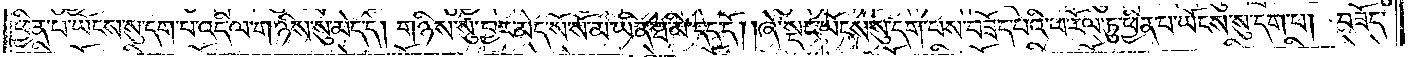ཕྱིན་པ་ཡོངས་སུ་དག་པ་འདི་ལ་གཉིས་སུ་མེད་དེ། གཉིས་སུ་བྱར་མེད་སོ་སོ་མ་ཡིན་ཐ་མི་དད་དོ། །ཞེ་སྡང་ཡོངས་སུ་དག་པས་བཟོད་པའི་ཕ་རོལ་ཏུ་ཕྱིན་པ་ཡོངས་སུ་དག་པ། བཟོད་
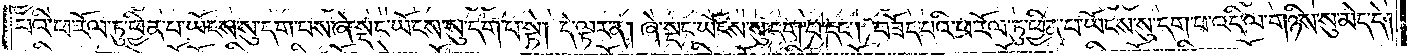པའི་ཕ་རོལ་ཏུ་ཕྱིན་པ་ཡོངས་སུ་དག་པས་ཞེ་སྡང་ཡོངས་སུ་དག་པ་སྟེ། དེ་ལྟར་ན། ཞེ་སྡང་ཡོངས་སུ་དག་པ་དང༌། བཟོད་པའི་ཕ་རོལ་ཏུ་ཕྱིན་པ་ཡོངས་སུ་དག་པ་འདི་ལ་གཉིས་སུ་མེད་དེ།
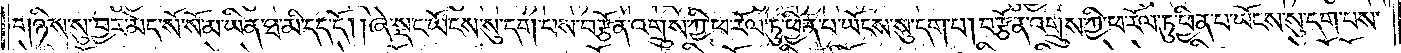གཉིས་སུ་བྱར་མེད་སོ་སོ་མ་ཡིན་ཐ་མི་དད་དོ། །ཞེ་སྡང་ཡོངས་སུ་དག་པས་བརྩོན་འགྲུས་ཀྱི་ཕ་རོལ་ཏུ་ཕྱིན་པ་ཡོངས་སུ་དག་པ། བརྩོན་འགྲུས་ཀྱི་ཕ་རོལ་ཏུ་ཕྱིན་པ་ཡོངས་སུ་དག་པས་
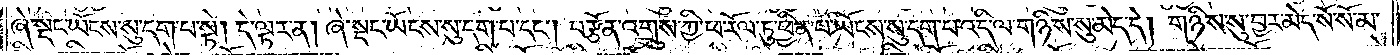ཞེ་སྡང་ཡོངས་སུ་དག་པ་སྟེ། དེ་ལྟར་ན། ཞེ་སྡང་ཡོངས་སུ་དག་པ་དང༌། བརྩོན་འགྲུས་ཀྱི་ཕ་རོལ་ཏུ་ཕྱིན་པ་ཡོངས་སུ་དག་པ་འདི་ལ་གཉིས་སུ་མེད་དེ། གཉིས་སུ་བྱར་མེད་སོ་སོ་མ་
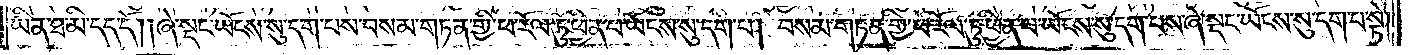ཡིན་ཐ་མི་དད་དོ། །ཞེ་སྡང་ཡོངས་སུ་དག་པས་བསམ་གཏན་གྱི་ཕ་རོལ་ཏུ་ཕྱིན་པ་ཡོངས་སུ་དག་པ། བསམ་གཏན་གྱི་ཕ་རོལ་ཏུ་ཕྱིན་པ་ཡོངས་སུ་དག་པས་ཞེ་སྡང་ཡོངས་སུ་དག་པ་སྟེ།
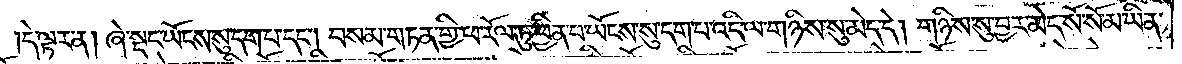དེ་ལྟར་ན། ཞེ་སྡང་ཡོངས་སུ་དག་པ་དང༌། བསམ་གཏན་གྱི་ཕ་རོལ་ཏུ་ཕྱིན་པ་ཡོངས་སུ་དག་པ་འདི་ལ་གཉིས་སུ་མེད་དེ། གཉིས་སུ་བྱར་མེད་སོ་སོ་མ་ཡིན་
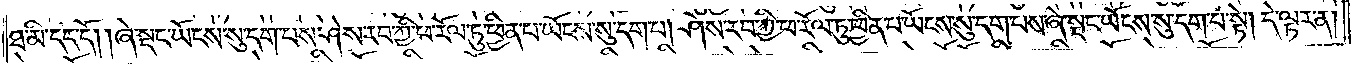ཐ་མི་དད་དོ། །ཞེ་སྡང་ཡོངས་སུ་དག་པས་ཤེས་རབ་ཀྱི་ཕ་རོལ་ཏུ་ཕྱིན་པ་ཡོངས་སུ་དག་པ། ཤེས་རབ་ཀྱི་ཕ་རོལ་ཏུ་ཕྱིན་པ་ཡོངས་སུ་དག་པས་ཞེ་སྡང་ཡོངས་སུ་དག་པ་སྟེ། དེ་ལྟར་ན།
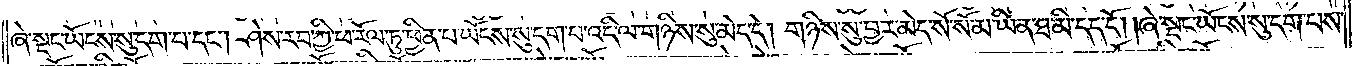ཞེ་སྡང་ཡོངས་སུ་དག་པ་དང༌། ཤེས་རབ་ཀྱི་ཕ་རོལ་ཏུ་ཕྱིན་པ་ཡོངས་སུ་དག་པ་འདི་ལ་གཉིས་སུ་མེད་དེ། གཉིས་སུ་བྱར་མེད་སོ་སོ་མ་ཡིན་ཐ་མི་དད་དོ། །ཞེ་སྡང་ཡོངས་སུ་དག་པས་
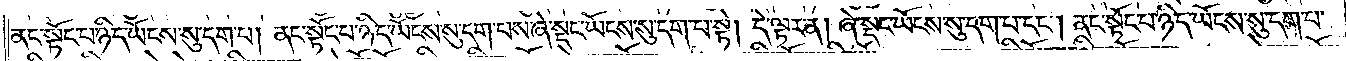ནང་སྟོང་པ་ཉིད་ཡོངས་སུ་དག་པ། ནང་སྟོང་པ་ཉིད་ཡོངས་སུ་དག་པས་ཞེ་སྡང་ཡོངས་སུ་དག་པ་སྟེ། དེ་ལྟར་ན། ཞེ་སྡང་ཡོངས་སུ་དག་པ་དང༌། ནང་སྟོང་པ་ཉིད་ཡོངས་སུ་དག་པ་
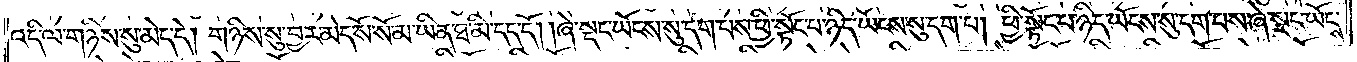འདི་ལ་གཉིས་སུ་མེད་དེ། གཉིས་སུ་བྱར་མེད་སོ་སོ་མ་ཡིན་ཐ་མི་དད་དོ། །ཞེ་སྡང་ཡོངས་སུ་དག་པས་ཕྱི་སྟོང་པ་ཉིད་ཡོངས་སུ་དག་པ། ཕྱི་སྟོང་པ་ཉིད་ཡོངས་སུ་དག་པས་ཞེ་སྡང་ཡོངས་
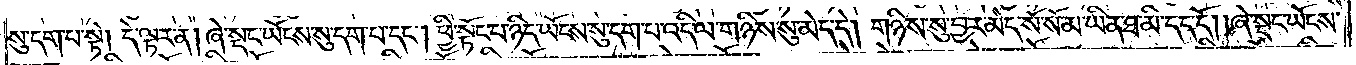སུ་དག་པ་སྟེ། དེ་ལྟར་ན། ཞེ་སྡང་ཡོངས་སུ་དག་པ་དང༌། ཕྱི་སྟོང་པ་ཉིད་ཡོངས་སུ་དག་པ་འདི་ལ་གཉིས་སུ་མེད་དེ། གཉིས་སུ་བྱར་མེད་སོ་སོ་མ་ཡིན་ཐ་མི་དད་དོ། །ཞེ་སྡང་ཡོངས་
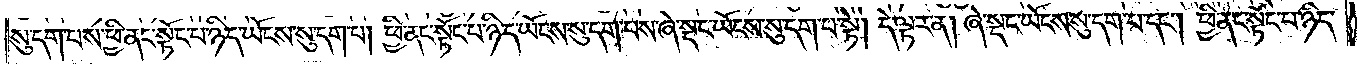སུ་དག་པས་ཕྱི་ནང་སྟོང་པ་ཉིད་ཡོངས་སུ་དག་པ། ཕྱི་ནང་སྟོང་པ་ཉིད་ཡོངས་སུ་དག་པས་ཞེ་སྡང་ཡོངས་སུ་དག་པ་སྟེ། དེ་ལྟར་ན། ཞེ་སྡང་ཡོངས་སུ་དག་པ་དང༌། ཕྱི་ནང་སྟོང་པ་ཉིད་
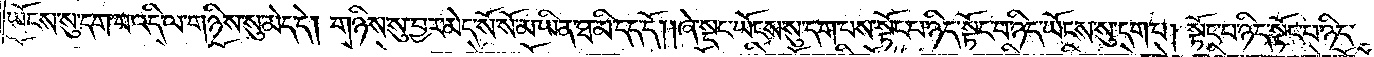ཡོངས་སུ་དག་པ་འདི་ལ་གཉིས་སུ་མེད་དེ། གཉིས་སུ་བྱར་མེད་སོ་སོ་མ་ཡིན་ཐ་མི་དད་དོ། །ཞེ་སྡང་ཡོངས་སུ་དག་པས་སྟོང་པ་ཉིད་སྟོང་པ་ཉིད་ཡོངས་སུ་དག་པ། སྟོང་པ་ཉིད་སྟོང་པ་ཉིད་
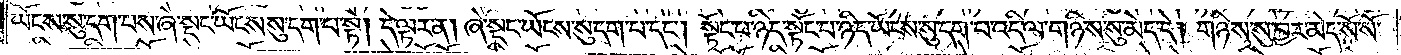ཡོངས་སུ་དག་པས་ཞེ་སྡང་ཡོངས་སུ་དག་པ་སྟེ། དེ་ལྟར་ན། ཞེ་སྡང་ཡོངས་སུ་དག་པ་དང༌། སྟོང་པ་ཉིད་སྟོང་པ་ཉིད་ཡོངས་སུ་དག་པ་འདི་ལ་གཉིས་སུ་མེད་དེ། གཉིས་སུ་བྱར་མེད་སོ་སོ་
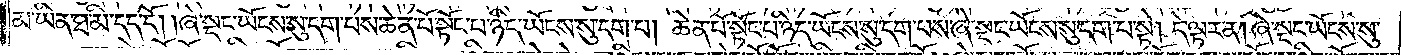མ་ཡིན་ཐ་མི་དད་དོ། །ཞེ་སྡང་ཡོངས་སུ་དག་པས་ཆེན་པོ་སྟོང་པ་ཉིད་ཡོངས་སུ་དག་པ། ཆེན་པོ་སྟོང་པ་ཉིད་ཡོངས་སུ་དག་པས་ཞེ་སྡང་ཡོངས་སུ་དག་པ་སྟེ། དེ་ལྟར་ན། ཞེ་སྡང་ཡོངས་སུ་
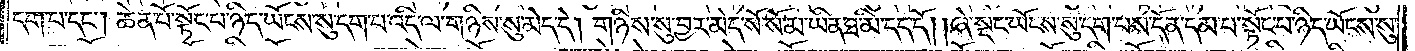དག་པ་དང༌། ཆེན་པོ་སྟོང་པ་ཉིད་ཡོངས་སུ་དག་པ་འདི་ལ་གཉིས་སུ་མེད་དེ། གཉིས་སུ་བྱར་མེད་སོ་སོ་མ་ཡིན་ཐ་མི་དད་དོ། །ཞེ་སྡང་ཡོངས་སུ་དག་པས་དོན་དམ་པ་སྟོང་པ་ཉིད་ཡོངས་སུ་
